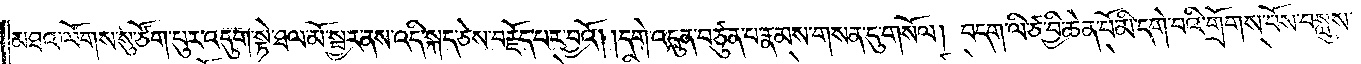མཐའ་ལོགས་སུ་ཙོག་པུར་འདུག་སྟེ་ཐལ་མོ་སྦྱར་ནས་འདི་སྐད་ཅེས་བརྗོད་པར་བྱའོ། །དགེ་འདུན་བཙུན་པ་རྣམས་གསན་དུ་གསོལ། བདག་ལི་ཙ་བྱི་ཆེན་པོ་མི་དགེ་བའི་གྲོགས་པོས་བསླུས་
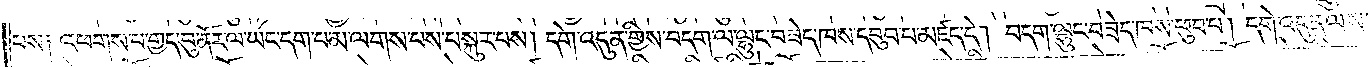པས༑ འཕགས་པ་གྱད་བུ་ནོར་ལ་ཡང་དག་པ་མ་ལགས་པས་བསྐུར་པས། དགེ་འདུན་གྱིས་བདག་ལ་ལྷུང་བཟེད་ཁས་དབུབ་པ་མཛད་དེ། བདག་ལྷུང་བཟེད་ཁས་ཕུབ་པ། དགེ་འདུན་ལས་
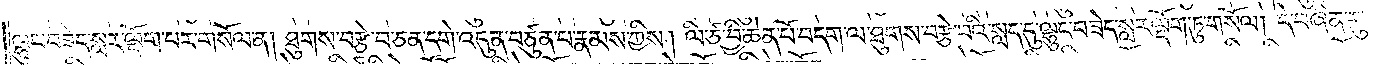ལྷུང་བཟེད་སླར་ལྡོག་པར་གསོལ་ན། ཐུགས་བརྩེ་བ་ཅན་དགེ་འདུན་བཙུན་པ་རྣམས་ཀྱིས། ལི་ཙ་བྱི་ཆེན་པོ་བདག་ལ་ཐུགས་བརྩེ་བའི་སླད་དུ་ལྷུང་བཟེད་སླར་ལྡོག་ཏུ་གསོལ། དེ་བཞིན་དུ་
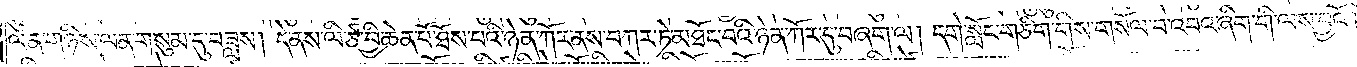ལན་གཉིས་ལན་གསུམ་དུ་བཟླས། དེ་ནས་ལི་ཙ་བྱི་ཆེན་པོ་ཐོས་པའི་ཉེན་ཀོར་ནས་བཀར་ཏེ་མཐོང་བའི་ཉེན་ཀོར་དུ་བཞག་ལ། དགེ་སློང་གཅིག་གིས་གསོལ་བ་འབའ་ཞིག་གི་ལས་བྱའོ། །
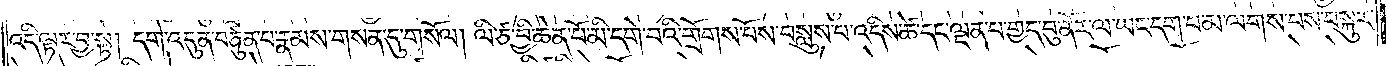འདི་ལྟར་བྱ་སྟེ། དགེ་འདུན་བཙུན་པ་རྣམས་གསན་དུ་གསོལ། ལི་ཙ་བྱི་ཆེན་པོ་མི་དགེ་བའི་གྲོགས་པོས་བསླུས་པ་འདིས་ཚེ་དང་ལྡན་པ་གྱད་བུ་ནོར་ལ་ཡང་དག་པ་མ་ལགས་པས་བསྐུར་
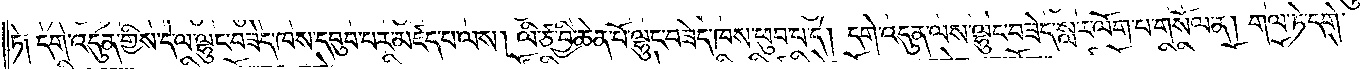ཏེ༑ དགེ་འདུན་གྱིས་དེ་ལ་ལྷུང་བཟེད་ཁས་དབུབ་པར་མཛད་པ་ལས། ལི་ཙ་བྱི་ཆེན་པོ་ལྷུང་བཟེད་ཁས་ཕུབ་པ་དེ། དགེ་འདུན་ལས་ལྷུང་བཟེད་སླར་ལོག་པ་གསོལ་ན། གལ་ཏེ་དགེ་
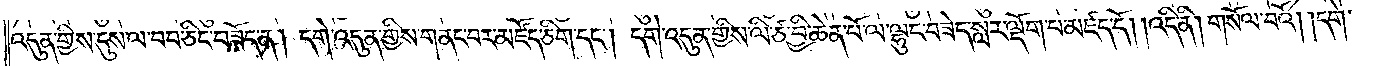འདུན་གྱིས་དུས་ལ་བབ་ཅིང་བཟོད་ན། དགེ་འདུན་གྱིས་གནང་བར་མཛོད་ཅིག་དང༌། དགེ་འདུན་གྱིས་ལི་ཙ་བྱི་ཆེན་པོ་ལ་ལྷུང་བཟེད་སླར་ལྡོག་པ་མཛད་དོ། །འདི་ནི། གསོལ་བའོ། །དགེ་
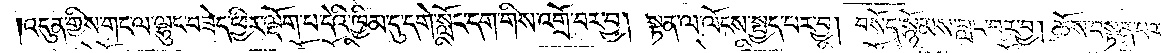འདུན་གྱིས་གང་ལ་ལྷུང་བཟེད་ཕྱིར་ལྡོག་པ་དེའི་ཁྱིམ་དུ་དགེ་སློང་དག་གིས་འགྲོ་བར་བྱ། སྟན་ལ་ལོངས་སྤྱད་པར་བྱ། བསོད་སྙོམས་བླང་བར་བྱ། ཆོས་བསྟན་པར་
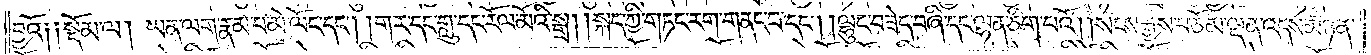བྱའོ༑    ༑སྡོམ་ལ། ཡན་ལག་རྣམ་པ་མེ་ལོང་དང༌། །གར་དང་གླུ་དང་རོལ་མོའི་སྒྲ། །སྐད་ཀྱི་གཏང་རག་གནང་བ་དང༌། །ལྷུང་བཟེད་བཞི་དང་ལྷན་ཅིག་པའོ། །སངས་རྒྱས་བཅོམ་ལྡན་འདས་མཉན་
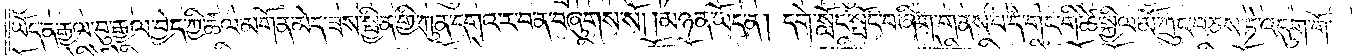ཡོད་ན་རྒྱལ་བུ་རྒྱལ་བྱེད་ཀྱི་ཚལ་མགོན་མེད་ཟས་སྦྱིན་གྱི་ཀུན་དགའ་ར་བ་ན་བཞུགས་སོ། །མཉན་ཡོད་ན། དགེ་སློང་སྤོང་བ་ཞིག་གནས་པ་དེ་གང་གི་ཚེ་སྐྱིལ་མོ་ཀྲུང་བཅས་ཏེ་འདུག་གོ་
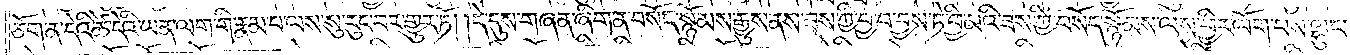ཅོག་ན་དེའི་ཚེ་དེའི་ཡན་ལག་གི་རྣམ་པ་ལས་སུ་རུང་བར་གྱུར་ཏོ། །དེ་དུས་གཞན་ཞིག་ན་བསོད་སྙོམས་རྒྱུས་ནས་ཟས་ཀྱི་བྱ་བ་བྱས་ཏེ་ཕྱི་མའི་ཟས་ཀྱི་བསོད་སྙོམས་ལས་ཕྱིར་ལོག་པས་ལྷུང་
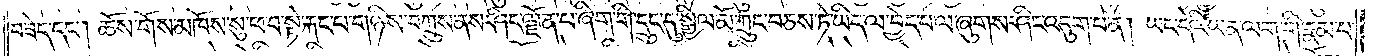བཟེད་དང༌། ཆོས་གོས་མཁོས་སུ་ཕ་བ་སྟེ་རྐང་པ་གཉིས་བཀྲུས་ནས་ཤིང་ལྗོན་པ་ཞིག་གི་དྲུང་དུ་སྐྱིལ་མོ་ཀྲུང་བཅས་ཏེ་ཡིད་ལ་བྱེད་པ་ལ་ཞུགས་ཤིང་འདུག་པ་ན། ཡང་དེའི་ཡན་ལག་གི་རྣམ་པ་
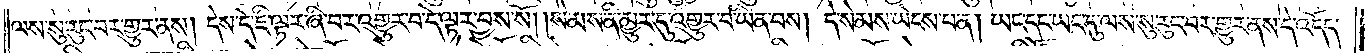ལས་སུ་རུང་བར་གྱུར་ནས། དེས་དེ་ཇི་ལྟར་ཞི་བར་འགྱུར་བ་དེ་ལྟར་བྱས་སོ། །སེམས་ནི་མྱུར་དུ་འགྱུར་བ་ཡིན་པས། དེ་སེམས་ཡེངས་པ་ན། ཡང་དང་ཡང་དུ་ལས་སུ་རུང་བར་གྱུར་ནས་དེ་འདོད་
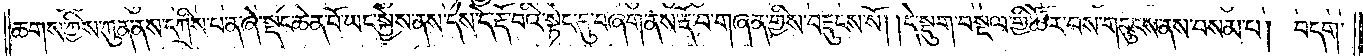ཆགས་ཀྱིས་ཀུན་ནས་དཀྲིས་པ་ན་ཞེ་སྡང་ཆེན་པོ་ཡང་སྐྱེས་ནས་དེས་དེ་རྡོ་བའི་སྟེང་དུ་བཞག་ནས་རྡོ་བ་གཞན་གྱིས་བརྡུངས་སོ། །དེ་སྡུག་བསྔལ་གྱི་ཚོར་བས་གདུངས་ནས་བསམ་པ། བདག་
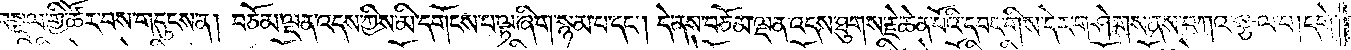སྡུག་བསྔལ་གྱི་ཚོར་བས་གདུངས་ན། བཅོམ་ལྡན་འདས་ཀྱིས་མི་དགོངས་པ་ལྟ་ཞིག་སྙམ་པ་དང༌། དེ་ནས་བཅོམ་ལྡན་འདས་ཐུགས་རྗེ་ཆེན་པོའི་དབང་གིས་དེར་གཤེགས་ནས་བཀའ་སྩལ་པ། དགེ་
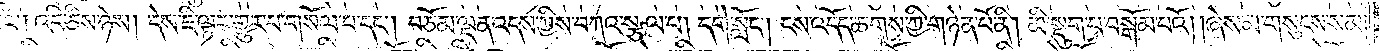ང༌། འདི་ཅིས་ཉེས། དེས་ཇི་ལྟར་གྱུར་པ་གསོལ་པ་དང༌། བཅོམ་ལྡན་འདས་ཀྱིས་བཀའ་སྩལ་པ། དགེ་སློང༌། ངས་འདོད་ཆགས་ཀྱི་གཉེན་པོ་ནི། མི་སྡུག་པ་བསྒོམ་པའོ། །ཞེས་མ་གསུངས་སམ།
